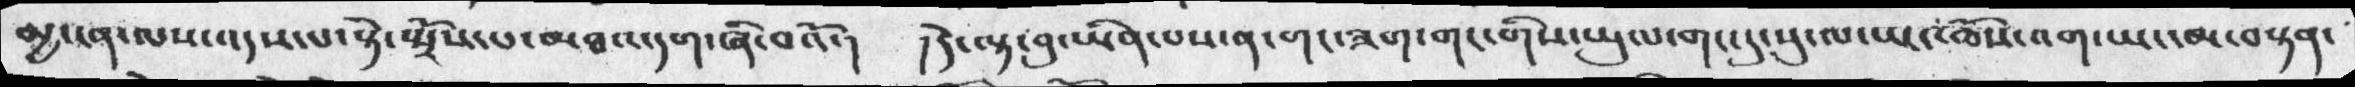མྱ་ངན་ལས་འདས་པ་སྟེ་སྤྲོས་པ་མཐའ་དག་ཞི་བའོ་།  །དེ་ལྟ་བུ་ཡིན་པས་ན་གང་ཟག་གང་གིས་ཡུལ་གང་དུ་སུ་ལ་ཡང་ཆོས་འག་ཡང་མ་བསྟན་
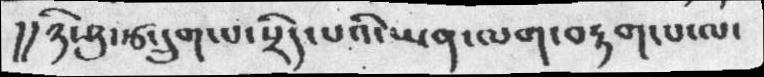།།ཉི་ཤུ་རྩ་དྲུག་པ་སྲིད་པའི་ཡན་ལག་བརྟག་པ་ལ་
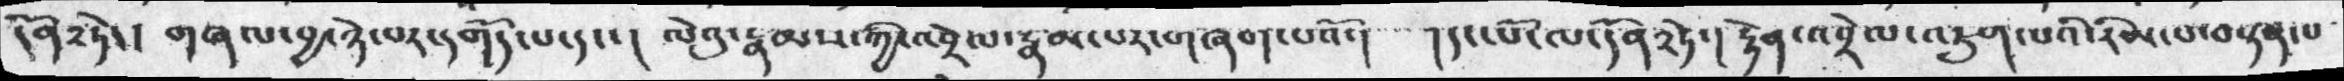དོན༢ཏེ་། གཞལ་བྱ་ཉེ་བར་དགོད་པ་དང་། ལེའུ་རྣམས་ཀྱི་འབྲེལ་རྣམ་པར་གཞག་པའོ་།  །དང་པོ་ལ་དོན༢ཏེ་རྟེན་འབྲེལ་འཇུག་པའི་རིམ་པ་བསྟན་པ
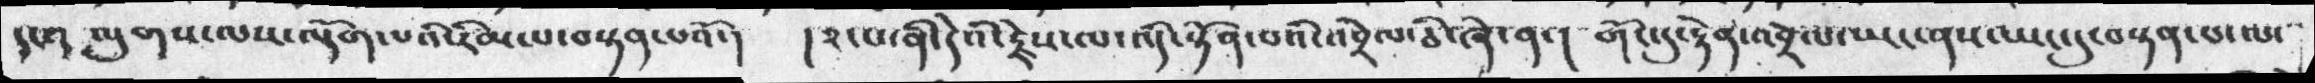དང་།  ལུགས་ལས་ལྡོག་པའི་རིམ་པ་བསྟན་པའོ་།  །༢་པ་ནི་དེའི་རྗེས་ལ་འདི་སྟོན་པའི་འབྲེལ་ཅི་ཞེ་ན་། གོང་དུ་རྟེན་འབྲེལ་ཡང་ནས་ཡང་དུ་བསྟན་པ་ལ་
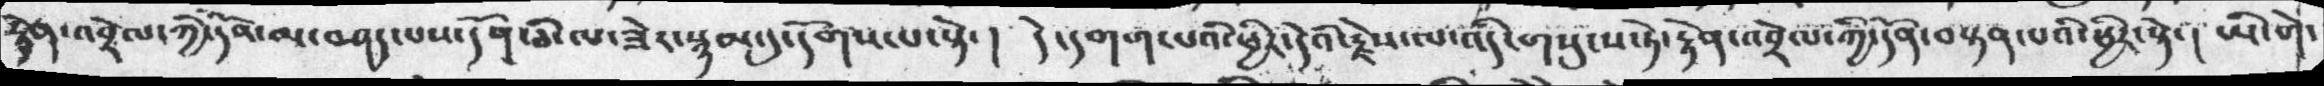རྟེན་འབེལ་ཀྱི་དེའ་མ་བཤད་པས་དོན་ཅི་ལ་ཟེར་སྙམ་དུ་དོགས་པ་སྟེ་། དེ་དགག་པའི་ཕྱིར་དེའི་རྗེས་ལ་འདི་གསུངས་ཏེ་རྟེན་འབྲེལ་ཀྱི་དོན་བསྟན་པའི་ཕྱིར་སྟེ་། ཡི་གེ་
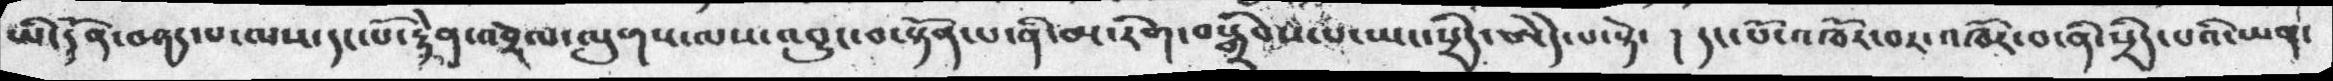ཡི་དོན་བཤད་པ་ལས་དང་པོ་རྟེན་འབྲེལ་ལུགས་ལས་འབྱུང་བ་སྟོན་པ་ནི་མ་རིག་བསྒྲིབས་པ་ཡང་སྲིད་ཨེདེ་པ་སྟེ་ ། དང་པོ་འཁོར་བ་ནི་སྲིད་པའི་ཡན་
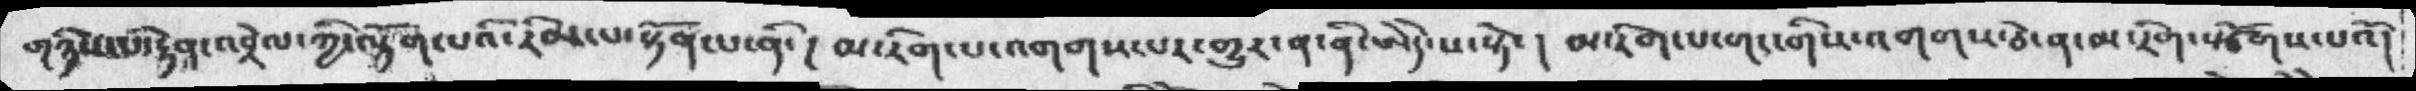གཉིས་པ་རྟེན་འབྲེལ་ཀྱི་ལྡོག་པའི་རིམ་པ་སྟོན་པ་ནི་། མ་རིག་པ་འགགས་པར་གྱུར་ན་ནི་ཨེདེ་པ་སྟེ་། མ་རིག་པ་གང་གིས་འགགས་ཅེ་ན་མ་རིག་སྩོགས་པའོ།
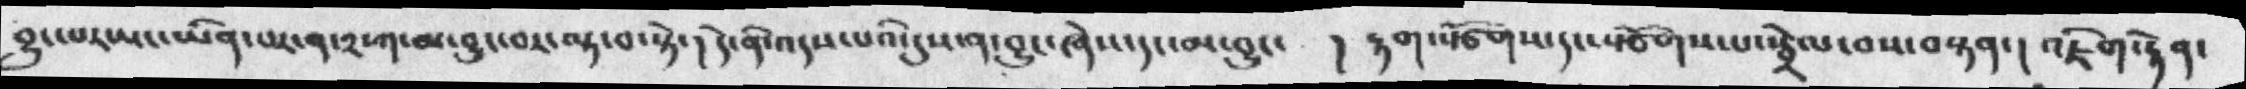བྱུང་པརཡང་ཡིན་པར་ན་༢་ཀ་མ་བྱུང་བར་ལྟ་བ་སྟེ་། དེ་ནི་འདས་པའི་དུས་ན་བྱུང་ཞེས་དང་མ་བྱུང་  ། རྟག་སྩོགས་དང་སྩོགས་པ་སྦྲེལ་བས་བསྟན་། འཇིག་རྟེན་
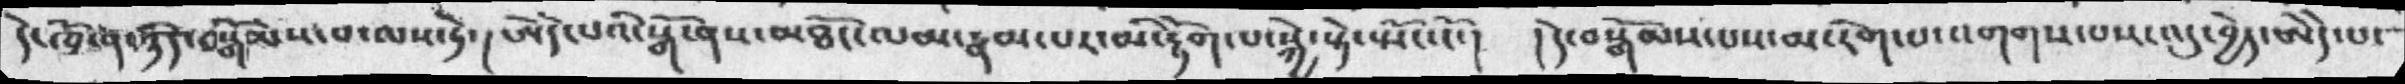དེ་ཁོ་ན་ཉིད་བསྒོམ་པ་ལས་ཏེ་།  ཨེདེ་པའི་སྒོ་ནས་མཐོང་ལམ་རྣམ་པར་མི་རྟོག་པ་སྐྱེ་སྟེ་སྤོང་ངོ་། །དེ་བསྒོམས་པས་མ་རིག་པ་འགགས་པས་འདུ་བྱེད་ཨེདེ་པ་
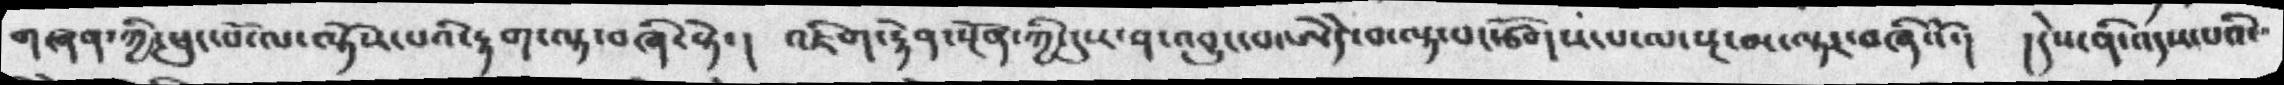གཞན་ཀྱི་ཕུང་པོ་ལ་ལྟོས་པའི་རྟག་ལྟ་བཞི་སྟེ་། འཇིག་རྟེན་སྔོན་ཀྱི་དུས་ན་འབྱུང་བ་ཨེདེ་བ་ལྟ་བ་རྩོགས་པ་ལ་སྔ་མ་ལྟར་བཞིའོ་།  །དེས་ནི་འདས་པའི་
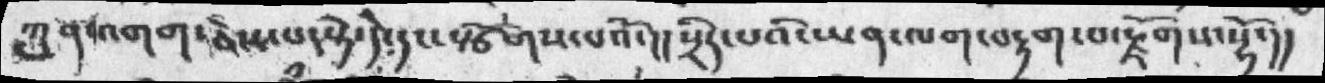ཀུན་འགག་ཅེས་པ་སྟེ་དེ་དང་སྩོགས་པའོ་།།སྲིད་པའི་ཡན་ལག་བརྟག་པ་རྫོགས་སྷོ་།།
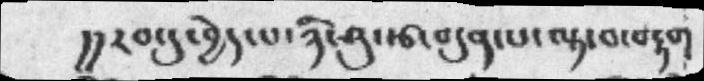།།རབ་དུ་བྱེད་པ་ཉི་ཤུ་རྩ་བདུན་པ་ལྟ་བ་བརྟག
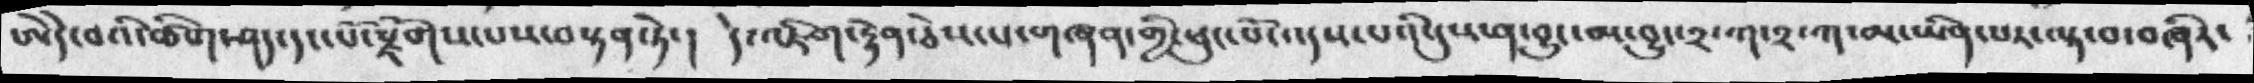ཨེདེ་བའི་ཚིག་ཤད་དང་པོ་རྫོགས་པས་བསྟན་ཏེ་།  དེ་འཇིག་རྟེན་ཅེས་པ་གཞན་གྱི་ཕུང་པོ་འདས་པའི་དུས་ན་བྱུང་མ་བྱུང་༢་ཀ་༢་ཀ་མ་ཡིན་པས་ལྟ་བ་བཞིར་
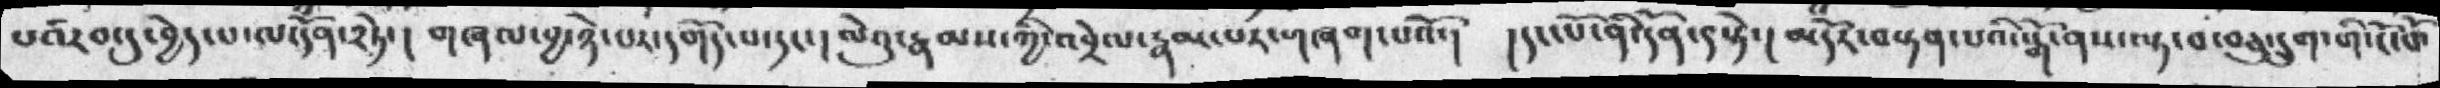པ་རབ་དུ་བྱེད་པ་ལ་དོན་༢ཏེ་།  གཞལ་བྱ་ཉེ་བར་དགོད་པ་དང་། ལེའུ་རྣམས་ཀྱི་འབྲེལ་རྣམ་པར་གཞག་པའོ་། །དང་པོ་ནི་དོན་༩སྟེ་། མདོར་བསྟན་པའི་སྒོ་ནས་ལྟ་བ་བཅུ་དྲུག་གི་ངོ་བོ་
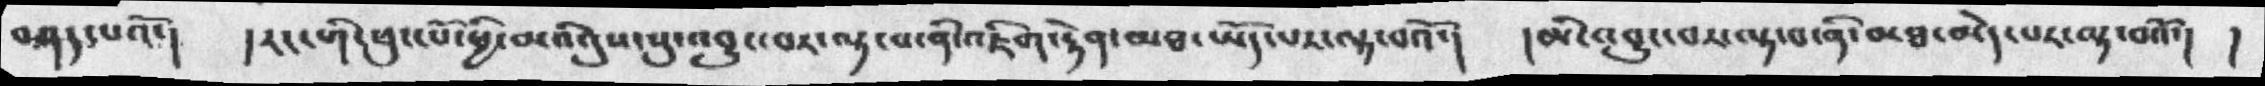བཤད་པའོ་།  །རང་གི་ཕུང་པོ་ཕྱི་མའི་དུས་སུ་འབྱུང་བར་ལྟ་བ་ནི་འཇིག་རྟེན་མཐ་ཡོད་པར་ལྟ་བའོ་།  །མི་འབྱུང་བར་ལྟ་བ་ནི་མཐ་མེད་པར་ལྟ་བའོ་། །
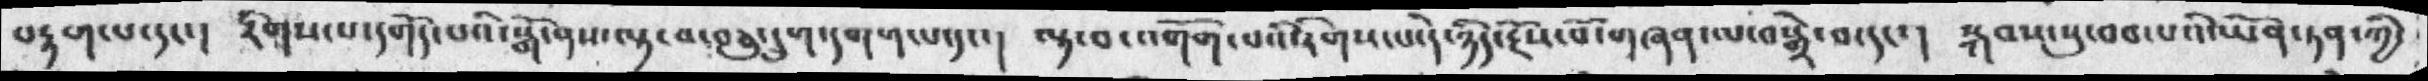བརྟག་པ་དང་། རིགས་པ་དགོད་པའི་སྒོ་ནས་ལྟ་བ་བཅུ་དྲུག་དགག་པ་དང་། ལྟ་བ་འགོག་པའི་རིགས་པ་དེ་ཉིད་རྔོས་པོ་གཞན་ལ་བསྒྲེ་བ་དང་། སྐབས་སུ་བབ་པའི་ཡོན་ཏན་ཀྱི་
